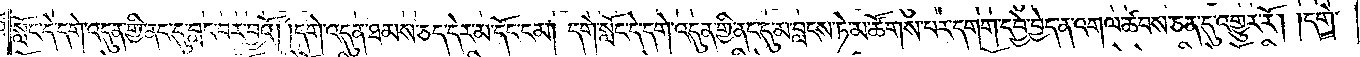སློང་དེ་དགེ་འདུན་གྱི་ནང་དུ་བླང་བར་བྱའོ། །དགེ་འདུན་ཐམས་ཅད་དེར་མ་དོང་ངམ། དགེ་སློང་དེ་དགེ་འདུན་གྱི་ནང་དུ་མ་བླངས་ཏེ་མ་ཚོགས་པར་དགག་དབྱེ་བྱེད་ན་འགལ་ཚབས་ཅན་དུ་འགྱུར་རོ། །དགེ་
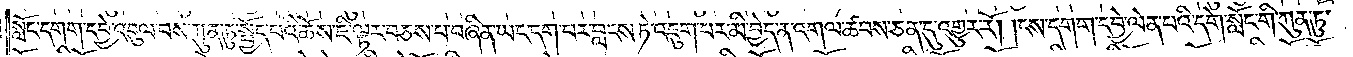སློང་དགག་དབྱེ་འབུལ་བས་ཀུན་ཏུ་སྤྱོད་པའི་ཆོས་ཇི་ལྟར་བཅས་པ་བཞིན་ཡང་དག་པར་བླངས་ཏེ་འཇུག་པར་མི་བྱེད་ན་འགལ་ཚབས་ཅན་དུ་འགྱུར་རོ། །ངས་དགག་དབྱེ་ལེན་པའི་དགེ་སློང་གི་ཀུན་ཏུ་
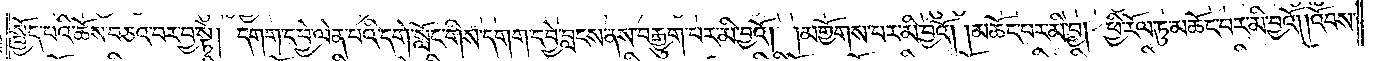སྤྱོད་པའི་ཆོས་བཅའ་བར་བྱ་སྟེ། དགག་དབྱེ་ལེན་པའི་དགེ་སློང་གིས་དགག་དབྱེ་བླངས་ནས་བརྒྱུག་པར་མི་བྱའོ། །མགྱོགས་པར་མི་བྱའོ། །མཆོད་པར་མི་བྱ། ཕྱི་རོལ་ཏུ་མཆོང་བར་མི་བྱའོ། །འོབས་
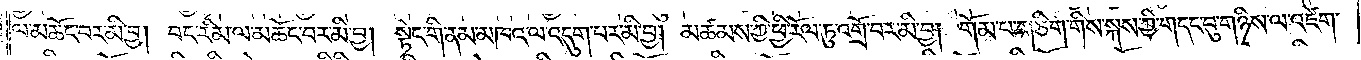ལ་མཆོང་བར་མི་བྱ། བང་རིམ་ལ་མཆོང་བར་མི་བྱ། སྟེང་གི་ནམ་མཁའ་ལ་འདུག་པར་མི་བྱ། མཚམས་ཀྱི་ཕྱི་རོལ་ཏུ་འགྲོ་བར་མི་བྱ། གོམ་པ་གཅིག་གིས་སྐས་ཀྱི་གདང་བུ་གཉིས་ལ་འཛེག་
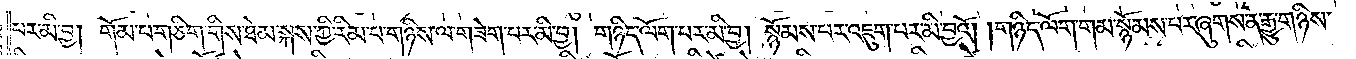པར་མི་བྱ། གོམ་པ་གཅིག་གིས་ཐེམ་སྐས་ཀྱི་རིམ་པ་གཉིས་ལ་གཟེག་པར་མི་བྱ། གཉིད་ལོག་པར་མི་བྱ། སྙོམས་པར་འཇུག་པར་མི་བྱའོ། །གཉིད་ལོག་གམ་སྙོམས་པར་ཞུགས་ན་རྒྱུ་གཉིས་
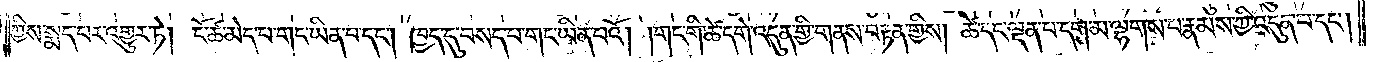ཀྱིས་སྨད་པར་འགྱུར་ཏེ། ངོ་ཚ་མེད་པ་གང་ཡིན་པ་དང༌། ཁྱད་དུ་བསད་པ་གང་ཡིན་པའོ། །གང་གི་ཚེ་དགེ་འདུན་གྱི་གནས་བརྟན་གྱིས། ཚེ་དང་ལྡན་པ་དག་མ་ལྷགས་པ་རྣམས་ཀྱི་འདུན་པ་དང༌།
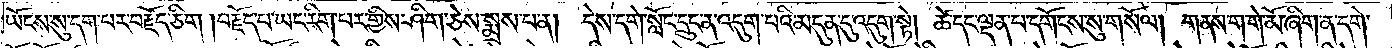ཡོངས་སུ་དག་པར་བརྗོད་ཅིག །བརྗོད་པ་ཡང་རིག་པར་གྱིས་ཤིག་ཅེས་སྨྲས་པ་ན། དེས་དགེ་སློང་དྲུང་ན་འདུག་པའི་མདུན་དུ་འདུག་སྟེ། ཚེ་དང་ལྡན་པ་དགོངས་སུ་གསོལ། གནས་ག་གེ་མོ་ཞིག་ན་དགེ་
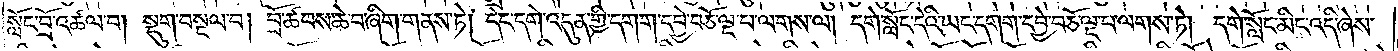སློང་བྲོ་འཚལ་བ། སྡུག་བསྔལ་བ། བྲོ་ཚབས་ཆེ་བ་ཞིག་གནས་ཏེ། དེང་དགེ་འདུན་གྱི་དགག་དབྱེ་བཅོ་ལྔ་པ་ལགས་ལ། དགེ་སློང་དེའི་ཡང་དགག་དབྱེ་བཅོ་ལྔ་པ་ལགས་ཏེ། དགེ་སློང་མིང་འདི་ཞེས་
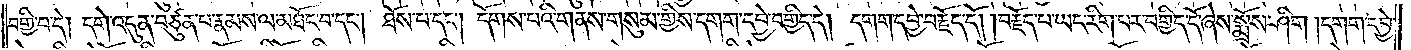བགྱི་བ་དེ། དགེ་འདུན་བཙུན་པ་རྣམས་ལ་མཐོང་བ་དང༌། ཐོས་པ་དང༌། དོགས་པའི་གནས་གསུམ་གྱིས་དགག་དབྱེ་བགྱིད་དེ། དགག་དབྱེ་བརྗོད་དོ། །བརྗོད་པ་ཡང་རིག་པར་བགྱིད་དོ་ཞེས་སྨྲོས་ཤིག །དགག་དབྱེ་
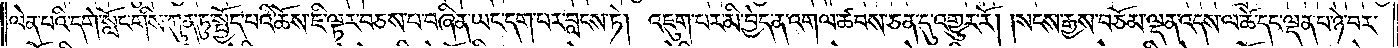ལེན་པའི་དགེ་སློང་གིས་ཀུན་ཏུ་སྤྱོད་པའི་ཆོས་ཇི་ལྟར་བཅས་པ་བཞིན་ཡང་དག་པར་བླངས་ཏེ། འཇུག་པར་མི་བྱེད་ན་འགལ་ཚབས་ཅན་དུ་འགྱུར་རོ། །སངས་རྒྱས་བཅོམ་ལྡན་འདས་ལ་ཚེ་དང་ལྡན་པ་ཉེ་བར་
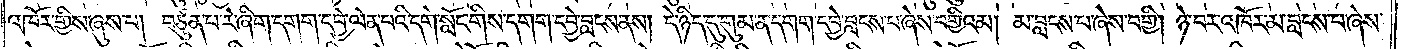འཁོར་གྱིས་ཞུས་པ། བཙུན་པ་རེ་ཞིག་དགག་དབྱེ་ལེན་པའི་དགེ་སློང་གིས་དགག་དབྱེ་བླངས་ནས། དེ་ཉིད་དུ་གུམ་ན་དགག་དབྱེ་བླངས་པ་ཞེས་བགྱིའམ། མ་བླངས་པ་ཞེས་བགྱི། ཉེ་བར་འཁོར་མ་བླངས་པ་ཞེས་
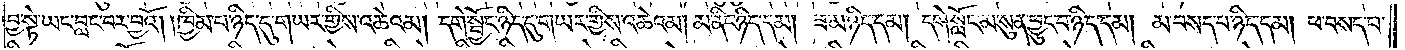བྱ་སྟེ་ཡང་བླང་བར་བྱའོ། །ཁྱིམ་པ་ཉིད་དུ་གཡར་གྱིས་འཆེའམ། དགེ་སྦྱོང་ཉིད་དུ་གཡར་གྱིས་འཆེའམ། མ་ནིང་ཉིད་དམ། ཟ་མ་ཉིད་དམ། དགེ་སློང་མ་སུན་ཕྱུང་བ་ཉིད་དམ། མ་བསད་པ་ཉིད་དམ། ཕ་བསད་པ་
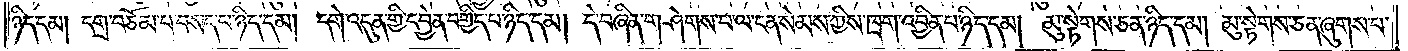ཉིད་དམ། དགྲ་བཅོམ་པ་བསད་པ་ཉིད་དམ། དགེ་འདུན་གྱི་དབྱེན་བགྱིད་པ་ཉིད་དམ། དེ་བཞིན་གཤེགས་པ་ལ་ངན་སེམས་ཀྱིས་ཁྲག་འབྱིན་པ་ཉིད་དམ། མུ་སྟེགས་ཅན་ཉིད་དམ། མུ་སྟེགས་ཅན་ཞུགས་པ་
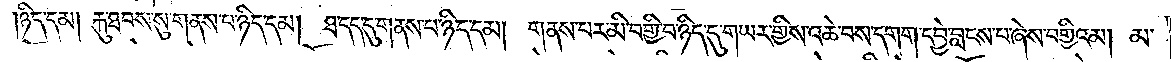།ཉིད་དམ། རྐུ་ཐབས་སུ་གནས་པ་ཉིད་དམ། ཐ་དད་དུ་གནས་པ་ཉིད་དམ། གནས་བར་མི་བགྱི་བ་ཉིད་དུ་གཡར་གྱིས་འཆེ་བས་དགག་དབྱེ་བླངས་པ་ཞེས་བགྱིའམ། མ་
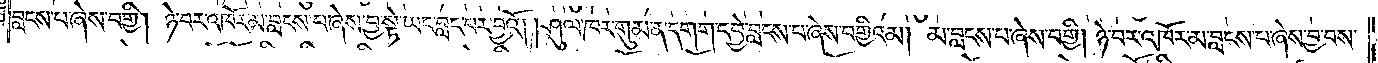བླངས་པ་ཞེས་བགྱི། ཉེ་བར་འཁོར་མ་བླངས་པ་ཞེས་བྱ་སྟེ་ཡང་བླང་བར་བྱའོ། །ཤུལ་ཁར་གུམ་ན་དགག་དབྱེ་བླངས་པ་ཞེས་བགྱིའམ། མ་བླངས་པ་ཞེས་བགྱི། ཉེ་བར་འཁོར་མ་བླངས་པ་ཞེས་བྱ་བས་
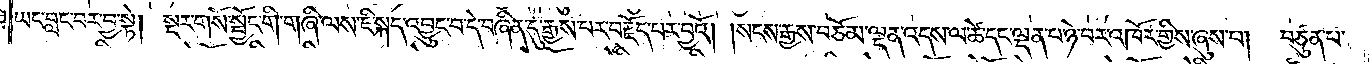ཡང་བླང་བར་བྱ་སྟེ། སྔར་གསོ་སྦྱོང་གི་གཞི་ལས་ཇི་སྐད་འབྱུང་བ་དེ་བཞིན་དུ་རྒྱས་པར་བརྗོད་པར་བྱའོ། །སངས་རྒྱས་བཅོམ་ལྡན་འདས་ལ་ཚེ་དང་ལྡན་པ་ཉེ་བར་འཁོར་གྱིས་ཞུས་པ། བཙུན་པ་
